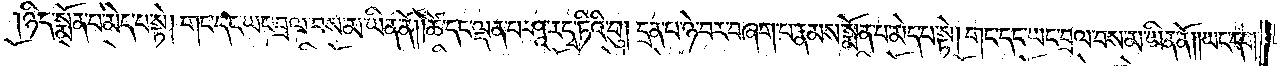ཉིད་སྨོན་པ་མེད་པ་སྟེ། གང་དང་ཡང་བྲལ་བས་མ་ཡིན་ནོ། །ཚེ་དང་ལྡན་པ་ཤཱ་ར་དྭ་ཏིའི་བུ། དྲན་པ་ཉེ་བར་བཞག་པ་རྣམས་སྨོན་པ་མེད་པ་སྟེ། གང་དང་ཡང་བྲལ་བས་མ་ཡིན་ནོ། །ཡང་དག་
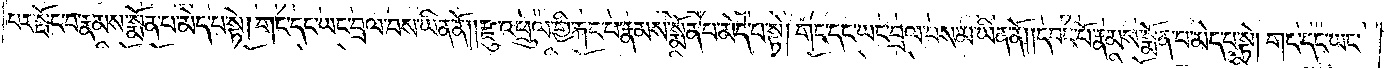པར་སྤོང་བ་རྣམས་སྨོན་པ་མེད་པ་སྟེ། གང་དང་ཡང་བྲལ་བས་མ་ཡིན་ནོ། རྫུ་འཕྲུལ་གྱི་རྐང་པ་རྣམས་སྨོན་པ་མེད་པ་སྟེ། གང་དང་ཡང་བྲལ་བས་མ་ཡིན་ནོ། །དབང་པོ་རྣམས་སྨོན་པ་མེད་པ་སྟེ། གང་དང་ཡང་
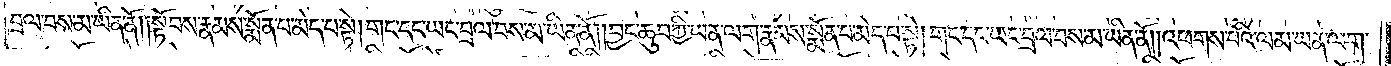བྲལ་བས་མ་ཡིན་ནོ། །སྟོབས་རྣམས་སྨོན་པ་མེད་པ་སྟེ། གང་དང་ཡང་བྲལ་བས་མ་ཡིན་ནོ། །བྱང་ཆུབ་ཀྱི་ཡན་ལག་རྣམས་སྨོན་པ་མེད་པ་སྟེ། གང་དང་ཡང་བྲལ་བས་མ་ཡིན་ནོ། །འཕགས་པའི་ལམ་ཡན་ལག་
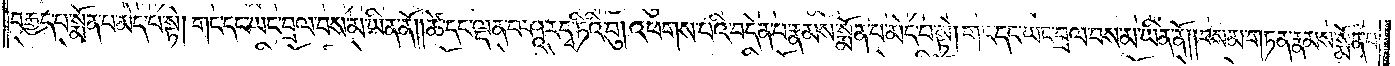བརྒྱད་པ་སྨོན་པ་མེད་པ་སྟེ། གང་དང་ཡང་བྲལ་བས་མ་ཡིན་ནོ། །ཚེ་དང་ལྡན་པ་ཤཱ་ར་དྭ་ཏིའི་བུ། འཕགས་པའི་བདེན་པ་རྣམས་སྨོན་པ་མེད་པ་སྟེ། གང་དང་ཡང་བྲལ་བས་མ་ཡིན་ནོ། བསམ་གཏན་རྣམས་སྨོན་པ་
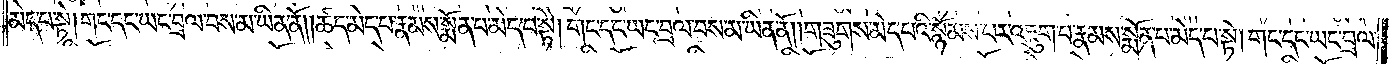མེད་པ་སྟེ། གང་དང་ཡང་བྲལ་བས་མ་ཡིན་ནོ། །ཚད་མེད་པ་རྣམས་སྨོན་པ་མེད་པ་སྟེ། གང་དང་ཡང་བྲལ་བས་མ་ཡིན་ནོ། །གཟུགས་མེད་པའི་སྙོམས་པར་འཇུག་པ་རྣམས་སྨོན་པ་མེད་པ་སྟེ། གང་དང་ཡང་བྲལ་
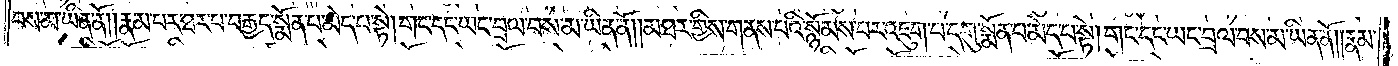བས་མ་ཡིན་ནོ། །རྣམ་པར་ཐར་པར་བརྒྱད་སྨོན་པ་མེད་པ་སྟེ། གང་དང་ཡང་བྲལ་བས་མ་ཡིན་ནོ། །མཐར་གྱིས་གནས་པའི་སྙོམས་པར་འཇུག་པ་དགུ་སྨོན་པ་མེད་པ་སྟེ། གང་དང་ཡང་བྲལ་བས་མ་ཡིན་ནོ། །རྣམ་
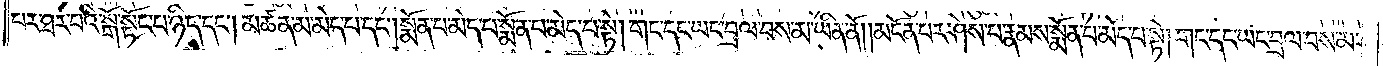པར་ཐར་པའི་སྒོ་སྟོང་པ་ཉིད་དང༌། མཚན་མ་མེད་པ་དང༌། སྨོན་པ་མེད་པ་སྨོན་པ་མེད་པ་སྟེ། གང་དང་ཡང་བྲལ་བས་མ་ཡིན་ནོ། །མངོན་པར་ཤེས་པ་རྣམས་སྨོན་པ་མེད་པ་སྟེ། གང་དང་ཡང་བྲལ་བས་མ་
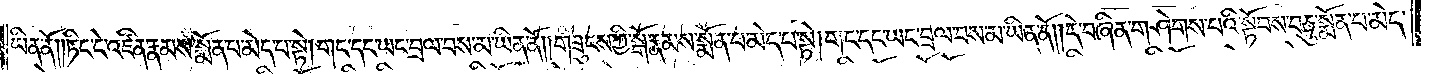ཡིན་ནོ། །ཏིང་ངེ་འཛིན་རྣམས་སྨོན་པ་མེད་པ་སྟེ། གང་དང་ཡང་བྲལ་བས་མ་ཡིན་ནོ། །གཟུངས་ཀྱི་སྒོ་རྣམས་སྨོན་པ་མེད་པ་སྟེ། གང་དང་ཡང་བྲལ་བས་མ་ཡིན་ནོ། །དེ་བཞིན་གཤེགས་པའི་སྟོབས་བཅུ་སྨོན་པ་མེད་
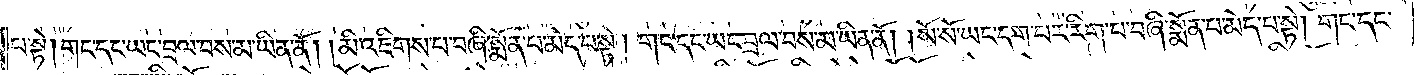པ་སྟེ། གང་དང་ཡང་བྲལ་བས་མ་ཡིན་ནོ། །མི་འཇིགས་པ་བཞི་སྨོན་པ་མེད་པ་སྟེ། གང་དང་ཡང་བྲལ་བས་མ་ཡིན་ནོ། །སོ་སོ་ཡང་དག་པར་རིག་པ་བཞི་སྨོན་པ་མེད་པ་སྟེ། གང་དང་
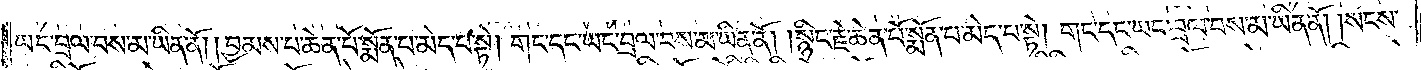ཡང་བྲལ་བས་མ་ཡིན་ནོ། །བྱམས་པ་ཆེན་པོ་སྨོན་པ་མེད་པ་སྟེ། གང་དང་ཡང་བྲལ་བས་མ་ཡིན་ནོ། །སྙིང་རྗེ་ཆེན་པོ་སྨོན་པ་མེད་པ་སྟེ། གང་དང་ཡང་བྲལ་བས་མ་ཡིན་ནོ། སངས་
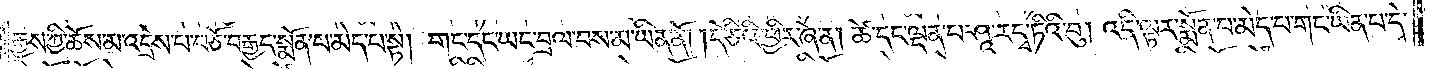རྒྱས་ཀྱི་ཆོས་མ་འདྲེས་པ་བཅོ་བརྒྱད་སྨོན་པ་མེད་པ་སྟེ། གང་དང་ཡང་བྲལ་བས་མ་ཡིན་ནོ། །དེ་ཅིའི་ཕྱིར་ཞེ་ན། ཚེ་དང་ལྡན་པ་ཤཱ་ར་དྭ་ཏིའི་བུ། འདི་ལྟར་སྨོན་པ་མེད་པ་གང་ཡིན་པ་དེ་
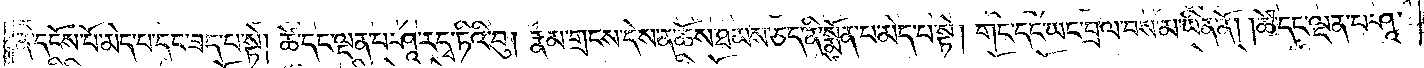ནི་དངོས་པོ་མེད་པ་དང་ཟད་པ་སྟེ། ཚེ་དང་ལྡན་པ་ཤཱ་ར་དྭ་ཏིའི་བུ། རྣམ་གྲངས་དེས་ན་ཆོས་ཐམས་ཅད་ནི་སྨོན་པ་མེད་པ་སྟེ། གང་དང་ཡང་བྲལ་བས་མ་ཡིན་ནོ། །ཚེ་དང་ལྡན་པ་ཤཱ་
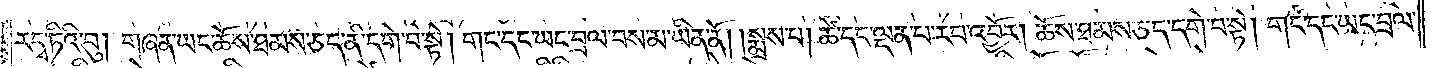ར་དྭ་ཏིའི་བུ། གཞན་ཡང་ཆོས་ཐམས་ཅད་ནི་དགེ་བ་སྟེ། གང་དང་ཡང་བྲལ་བས་མ་ཡིན་ནོ། །སྨྲས་པ། ཚེ་དང་ལྡན་པ་རབ་འབྱོར། ཆོས་ཐམས་ཅད་དགེ་བ་སྟེ། གང་དང་ཡང་བྲལ་
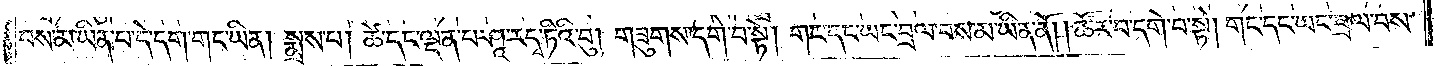བས་མ་ཡིན་པ་དེ་དག་གང་ཡིན། སྨྲས་པ། ཚེ་དང་ལྡན་པ་ཤཱ་ར་དྭ་ཏིའི་བུ། གཟུགས་དགེ་བ་སྟེ། གང་དང་ཡང་བྲལ་བས་མ་ཡིན་ནོ། །ཚེར་བ་དགེ་བ་སྟེ། གང་དང་ཡང་བྲལ་བས་
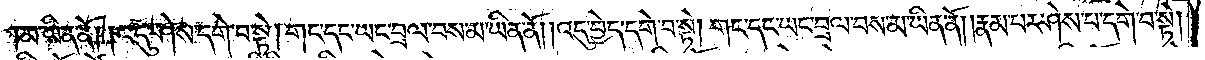མ་ཡིན་ནོ། །འདུ་ཤེས་དགེ་བ་སྟེ། གང་དང་ཡང་བྲལ་བས་མ་ཡིན་ནོ། །འདུ་བྱེད་དགེ་བ་སྟེ། གང་དང་ཡང་བྲལ་བས་མ་ཡིན་ནོ། །རྣམ་པར་ཤེས་པ་དགེ་བ་སྟེ།
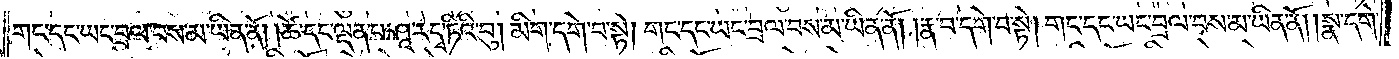གང་དང་ཡང་བྲལ་བས་མ་ཡིན་ནོ། །ཚེ་དང་ལྡན་པ་ཤཱ་ར་དྭ་ཏིའི་བུ། མིག་དགེ་བ་སྟེ། གང་དང་ཡང་བྲལ་བས་མ་ཡིན་ནོ། །རྣ་བ་དགེ་བ་སྟེ། གང་དང་ཡང་བྲལ་བས་མ་ཡིན་ནོ། །སྣ་དགེ་
